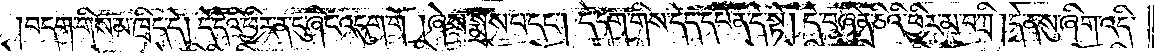བདག་གིས་མ་ཁྲིད་དེ། དེ་དེའི་ཕྱིར་ན་ངུ་ཞིང་འདུག་གོ །ཞེས་སྨྲས་པ་དང༌། དེ་དག་གིས་དེད་དཔོན་དེ་སྟེ། དེ་བཞིན་ཅིའི་ཕྱིར་མ་བཀྲི། དེ་ན་སུ་ཞིག་འདི་
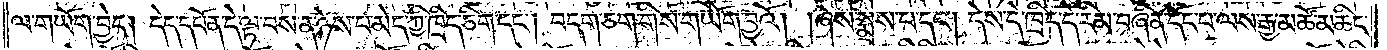ལ་གཡོག་བྱེད། དེད་དཔོན་དེ་ལྟ་བས་ན་ཉེས་པ་མེད་ཀྱི་ཁྲིད་ཅིག་དང༌། བདག་ཅག་གིས་གཡོག་བྱའོ། །ཞེས་སྨྲས་པ་དང༌། དེས་དེ་ཁྲིད་དེ་རིམ་བཞིན་དོང་པ་ལས་རྒྱ་མཚོ་མཆིང་
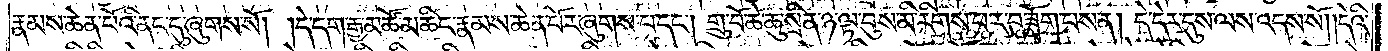རྣམས་ཆེན་པོའི་ནང་དུ་ཞུགས་སོ། །དེ་དག་རྒྱ་མཚོ་མཆིང་རྣམས་ཆེན་པོར་ཞུགས་པ་དང༌། གྲུ་བོ་ཆེ་ཆུ་སྲིན་ཉ་ལྟ་བུས་མི་རིགས་པར་བཟློག་པས་ན། དེ་དེར་དུས་ལས་འདས་སོ། །དེའི་
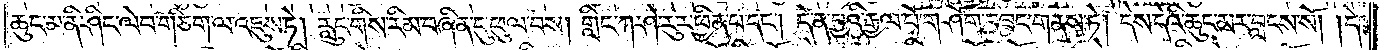ཆུང་མ་དི་ཤིང་ལེབ་གཅིག་ལ་འཇུས་ཏེ། རླུང་གིས་རིམ་བཞིན་དུ་ཕུལ་བས། གླིང་ཀ་ཤེ་རུར་ཕྱིན་པ་དང༌། དེ་ན་བྱའི་རྒྱལ་པོ་གཤོག་བཟང་གནས་ཏེ། དེས་དེའི་ཆུང་མར་བླངས་སོ། །དེ་
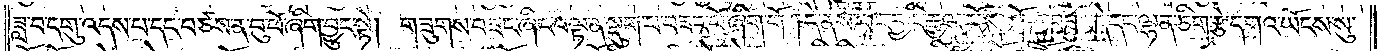ཟླ་བ་དགུ་འདས་པ་དང་བཙས་ན་བུ་ཕོ་ཞིག་བྱུང་སྟེ། གཟུགས་བཟང་ཞིང་བལྟ་ན་སྡུག་པ་བཟང་པོ་ཞིག་གོ །དེ་ནས་ཡང་བྱའི་རྒྱལ་པོ་གཤོག་བཟང་དེ་དང་ལྷན་ཅིག་རྩེ་དགའ་ཡོངས་སུ་
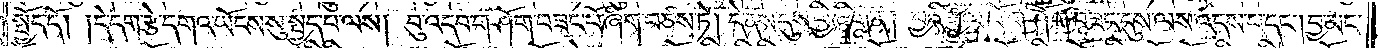སྤྱོད་དོ། །དེ་དག་རྩེ་དགའ་ཡོངས་སུ་སྤྱད་པ་ལས། བུ་འདབ་གཤོག་བཟང་པོ་ཞིག་བཙས་ཏེ། དེ་ནས་དུས་ཕྱི་ཞིག་ན། བྱའི་རྒྱལ་པོ་གཤོག་བཟང་དུས་ལས་འདས་པ་དང༌། བྱ་མང་
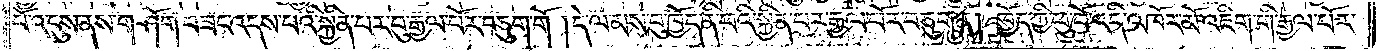པོ་འདུས་ནས་གཤོག་བཟང་འདས་པའི་སྐྱིན་པར་བུ་རྒྱལ་པོར་བཅུག་གོ །དེ་ལ་མས་བུ་ཁྱོད་ནི་ཕའི་སྐྱིན་པར་རྒྱལ་པོར་བཅུག་ན། ཁྱོད་ཀྱི་ཕུ་བོ་འདི་འཁོར་མོ་འཇིག་གི་རྒྱལ་པོར་
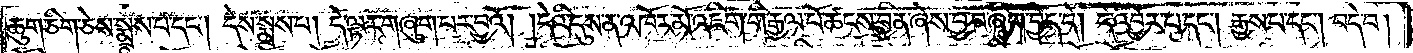ཆུག་ཅིག་ཅེས་སྨྲས་པ་དང༌། དེས་སྨྲས་པ། དེ་ལྟར་གཞུག་པར་བྱའོ། །དེའི་དུས་ན་འཁོར་མོ་འཇིག་གི་རྒྱལ་པོ་ཚངས་བྱིན་ཞེས་བྱ་བ་ཞིག་བྱེད་དེ། དེ་འབྱོར་པ་དང༌། རྒྱས་པ་དང༌། བདེ་བ།
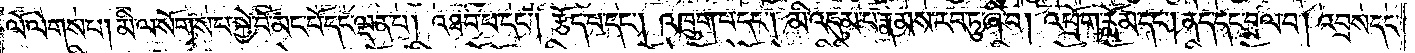ལོ་ལེགས་པ། མི་ལ་སོགས་པ་སྐྱེ་བོ་མང་པོ་དང་ལྡན་པ། འཐབ་པ་དང༌། རྩོད་པ་དང༌། འཁྲུག་པ་དང༌། མི་འདུམ་པ་རྣམས་རབ་ཏུ་ཞི་བ། འཕྲོག་རློམ་དང༌། ནད་དང་བྲལ་བ། འབྲས་དང་
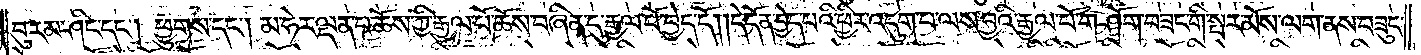བུ་རམ་ཤིང་དང༌། ཕྱུགས་དང༌། མ་ཧེར་ལྡན་པ་ཆོས་ཀྱི་རྒྱལ་པོ་ཆོས་བཞིན་དུ་རྒྱལ་པོ་བྱེད་དོ། །དེ་དོན་བྱེད་པའི་ཕྱིར་འདུག་པ་ལས་བྱའི་རྒྱལ་པོ་གཤོག་བཟང་གི་སྤར་མོས་ལག་ནས་བཟུང་
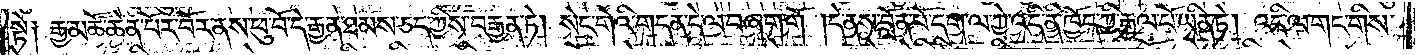སྟེ༑ རྒྱ་མཚོ་ཆེན་པོར་བོར་ནས་ཕུ་བོ་དེ་རྒྱན་ཐམས་ཅད་ཀྱིས་བརྒྱན་ཏེ། སེང་གེའི་གདན་དེ་ལ་བཞག་གོ །དེ་ནས་བློན་པོ་དག་ལ་ཀྱེ་འདི་ནི་ཁྱོད་ཀྱི་རྒྱལ་པོ་ཡིན་ཏེ། འདི་ལ་གང་གིས་
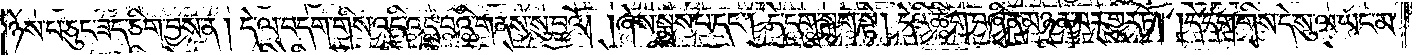ཉེས་པ་ཅུང་ཟད་ཅིག་བྱས་ན། དེ་ལ་བདག་གིས་འདི་འདྲ་བའི་གནས་སུ་བྱའོ། །ཞེས་སྨྲས་པ་དང༌། དེ་དག་སྐྲག་སྟེ། དེའི་ཚིག་བཞིན་མཉན་པར་གྱུར་ཏོ། །དེ་དག་གིས་དེ་སུ་ལ་ཡང་མ་
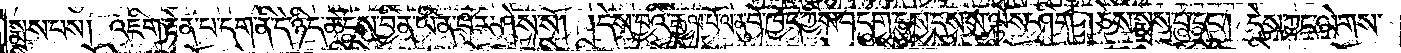སྨྲས་པས། འཇིག་རྟེན་པ་དག་ནི་དེ་ཉིད་ཚངས་བྱིན་ཡིན་པར་ཤེས་སོ། །དེས་བྱའི་རྒྱལ་པོ་ལ་ནུ་བོ་ཁྱོད་ཀྱིས་བདག་དུས་དུས་སུ་ལྟོས་ཤིག །ཅེས་སྨྲས་པ་དང༌། དེས་ཀྱང་ལེགས་
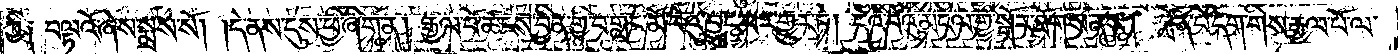ཀྱི༑ བལྟའོ་ཞེས་སྨྲས་སོ། །དེ་ནས་དུས་ཕྱི་ཞིག་ན། རྒྱལ་པོ་ཚངས་བྱིན་གྱི་བ་གླང་མོ་བེའུ་བྱུང་བར་གྱུར་ཏེ། དེའི་བེའུ་མངལ་གྱི་སྒོར་ཐོགས་ནས། བློན་པོ་དག་གིས་རྒྱལ་པོ་ལ་
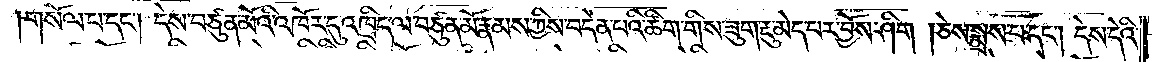གསོལ་པ་དང༌། དེས་བཙུན་མོའི་འཁོར་དུ་འཁྲིད་ལ་བཙུན་མོ་རྣམས་ཀྱིས་བདེན་པའི་ཚིག་གིས་ཟུག་རྔུ་མེད་པར་བྱོས་ཤིག །ཅེས་སྨྲས་པ་དང༌། དེས་དེའི་
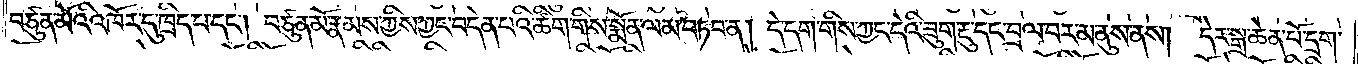བཙུན་མོའི་འཁོར་དུ་ཁྲིད་པ་དང༌། བཙུན་མོ་རྣམས་ཀྱིས་ཀྱང་བདེན་པའི་ཚིག་གིས་སྨོན་ལམ་བཏབ་ན། དེ་དག་གིས་ཀྱང་དེའི་ཟུག་རྔུ་དང་བྲལ་བར་མ་ནུས་ནས། དེར་སྒྲ་ཆེན་པོ་དྲག་
